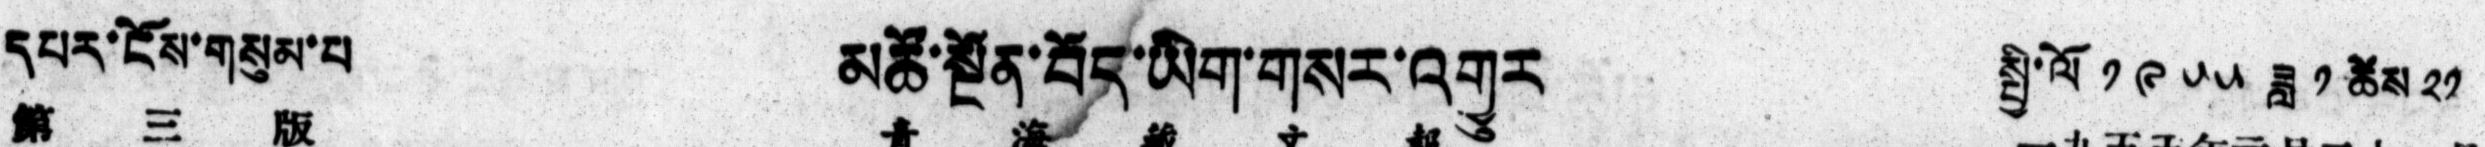དཔར་ངོས་གསུམ་པ།   མཚོ་སྔོན་བོད་ཡིག་གསར་འགྱུར   སྤྱི་ལོ ༡༩༥༥ ཟླ ༡ ཚེས ༢༡
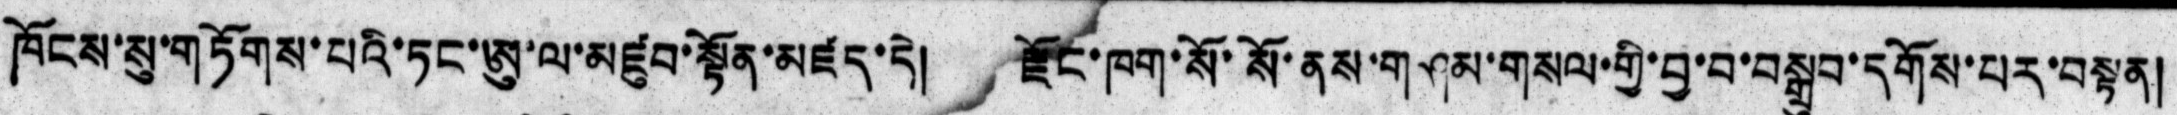ཁོངས་སུ་གཏོགས་པའི་ཏང་ཨུ་ལ་མཛུབ་སྟོན་མཛད་དེ། རྫོང་ཁག་སོ་སོ་ནས་གཤམ་གསལ་གྱི་བྱ་བ་བསྒྲུབ་དགོས་པར་བསྟན།
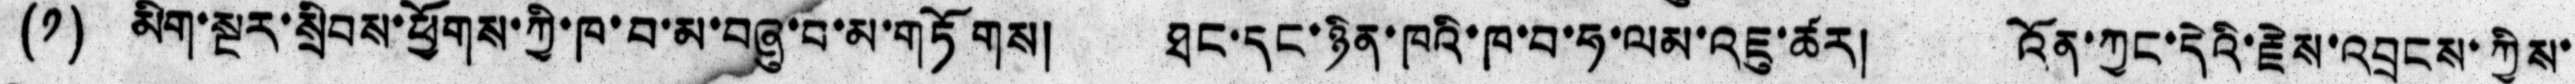(༡) མིག་སྔར་སྲིབས་ཕྱོགས་ཀྱི་ཁ་བ་མ་བཞུ་བ་མ་གཏོགས། ཐང་དང་ཉིན་ཁའི་ཁ་བ་ཧ་ལམ་འཇུ་ཚར། འོན་ཀྱང་དེའི་རྗེས་འབྲངས་ཀྱིས་
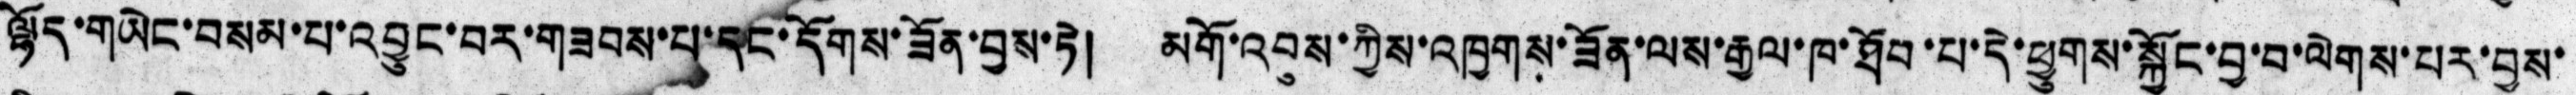ལྷོད་གཡེང་བསམ་པ་འབྱུང་བར་གཟབས་པ་དང་དོགས་ཟོན་བྱས་ཏེ། མགོ་འབུས་ཀྱིས་འཁྱགས་ཟོན་ལས་རྒྱལ་ཁ་ཐོབ་པ་དེ་ཕྱུགས་སྐྱོང་བྱ་བ་ལེགས་པར་བྱས་
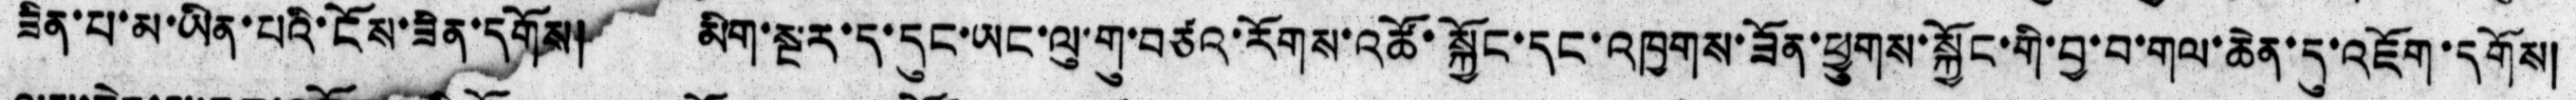ཟིན་པ་མ་ཡིན་པའི་ངོས་ཟིན་དགོས། མིག་སྔར་ད་དུང་ཡང་ལུ་གུ་བཙའ་རོགས་འཚོ་སྐྱོང་དང་འཁྱགས་ཟོན་ཕྱུགས་སྐྱོང་གི་བྱ་བ་གལ་ཆེན་དུ་འཇོག་དགོས།
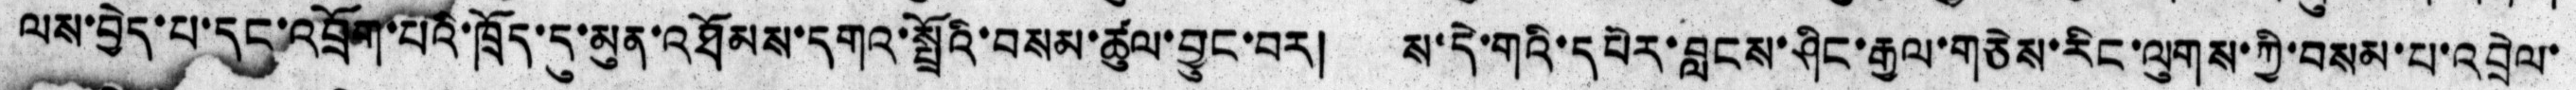ལས་བྱེད་པ་དང་འབྲོག་པའི་ཁྲོད་དུ་མུན་འཐོམས་དགའ་སྤྲོའི་བསམ་ཚུལ་བྱུང་བར། ས་དེ་གའི་དཔེར་བླངས་ཤིང་རྒྱལ་གཅེས་རིང་ལུགས་ཀྱི་བསམ་པ་འབྲེལ་
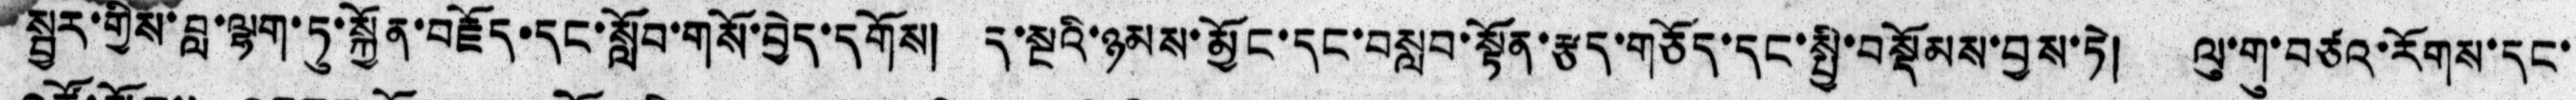སྦྱར་གྱིས་བླ་ལྷག་ཏུ་སྐྱོན་བརྗོད་དང་སློབ་གསོ་བྱེད་དགོས། ད་སྔའི་ཉམས་མྱོང་དང་བསླབ་སྟོན་རྩད་གཅོད་དང་སྤྱི་བསྡོམས་བྱས་ཏེ། ལུ་གུ་བཙའ་རོགས་དང་
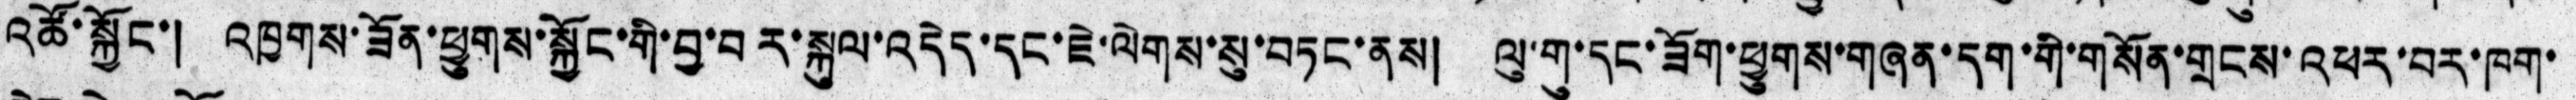འཚོ་སྐྱོང་། འཁྱགས་ཟོན་ཕྱུགས་སྐྱོང་གི་བྱ་བར་སྐུལ་འདེད་དང་ཇེ་ལེགས་སུ་བཏང་ནས། ལུ་གུ་དང་ཟོག་ཕྱུགས་གཞན་དག་གི་གསོན་གྲངས་འཕར་བར་ཁག་
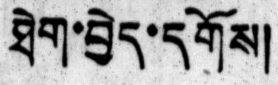ཐེག་བྱེད་དགོས།
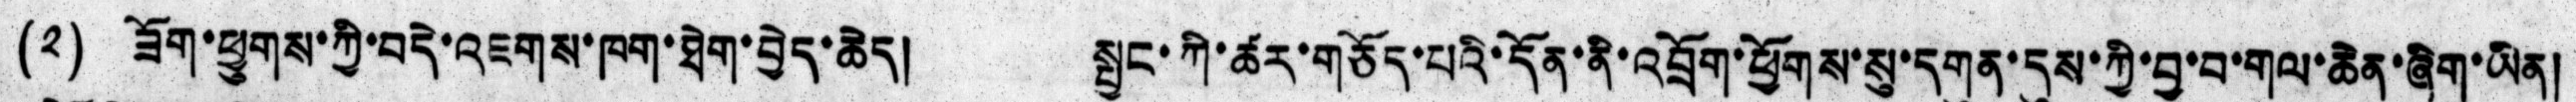(༢) ཟོག་ཕྱུགས་ཀྱི་བདེ་འཇགས་ཁག་ཐེག་བྱེད་ཆེད། སྤྱང་ཀི་ཚར་གཅོད་པའི་དོན་ནི་འབྲོག་ཕྱོགས་སུ་དགུན་དུས་ཀྱི་བྱ་བ་གལ་ཆེན་ཞིག་ཡིན།
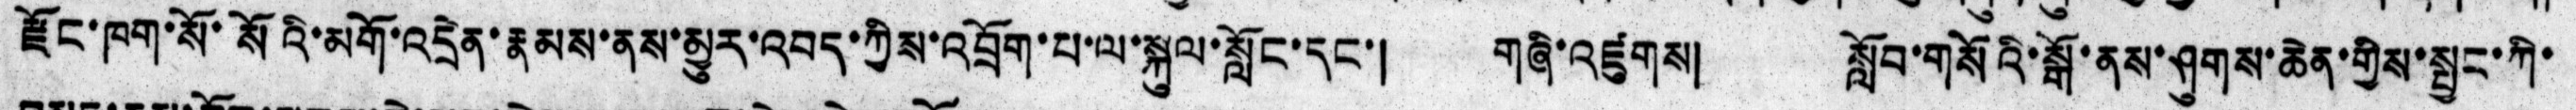ཁག་སོ་སོའི་མགོ་འདྲེན་རྣམས་ནས་མྱུར་འབད་ཀྱིས་འབྲོག་པ་ལ་སྐུལ་སློང་དང་། གཞི་འཛུགས། སློབ་གསོའི་སྒོ་ནས་ཤུགས་ཆེན་གྱིས་སྤྱང་ཀི་
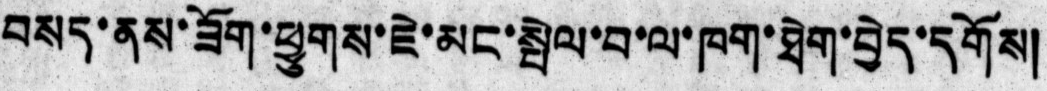བསད་ནས་ཟོག་ཕྱུགས་ཇེ་མང་སྤེལ་བ་ལ་ཁག་ཐེག་བྱེད་དགོས།
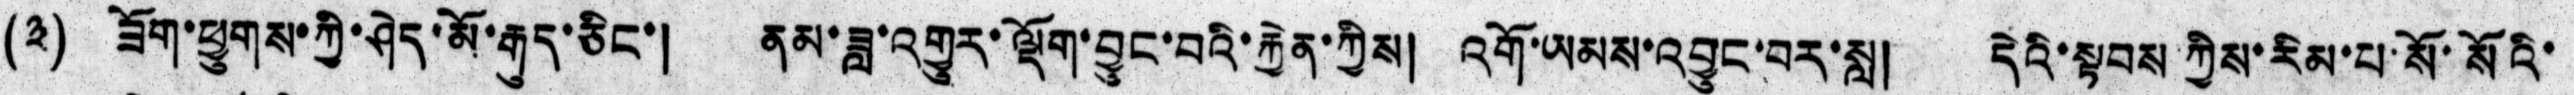(༣) ཟོག་ཕྱུགས་ཀྱི་ཤེད་མོ་རྒུད་ཅིང་། ནམ་ཟླ་འགྱུར་ལྡོག་བྱུང་བའི་རྐྱེན་ཀྱིས། འགོ་ཡམས་འབྱུང་བར་སླ། དེའི་སྟབས ཀྱིས་རིམ་པ་སོ་སོའི་
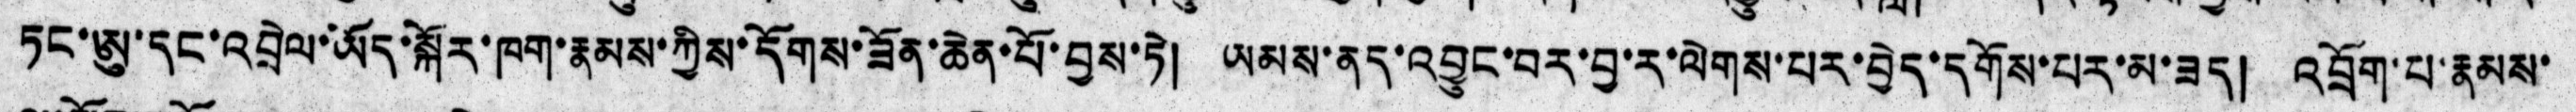ཏང་ཨུ་དང་འབྲེལ་ཡོད་སྐོར་ཁག་རྣམས་ཀྱིས་དོགས་ཟོན་ཆེན་པོ་བྱས་ཏེ། ཡམས་ནད་འབྱུང་བར་བྱ་ར་ལེགས་པར་བྱེད་དགོས་པར་མ་ཟད། འབྲོག་པ་རྣམས་
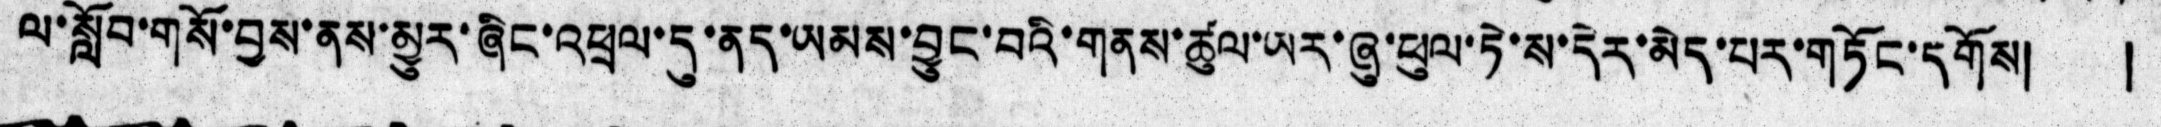ལ་སློབ་གསོ་བྱས་ནས་མྱུར་ཞིང་འཕྲལ་དུ་ནད་ཡམས་བྱུང་བའི་གནས་ཚུལ་ཡར་ཞུ་ཕུལ་ཏེ་ས་དེར་མེད་པར་གཏོང་དགོས། །
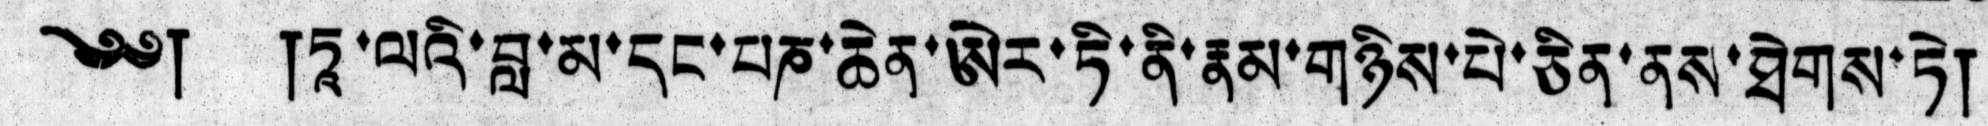༄༅། །ཏཱ་ལའི་བླ་མ་དང་པཎ་ཆེན་ཨེར་ཏི་ནི་རྣམ་གཉིས་པེ་ཅིན་ནས་ཐེགས་ཏེ།
